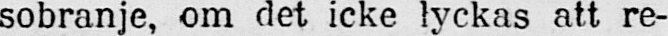sobranje, om det icke lyckas att re-
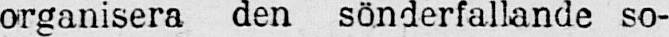organisera den sönderfallande so-
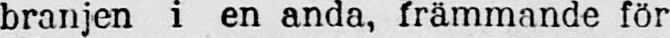branjen i en anda, främmande för
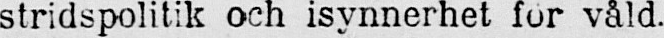stridspolitik och isynnerhet for våld.
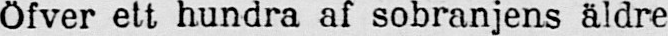Öfver ett hundra af sobranjens äldre
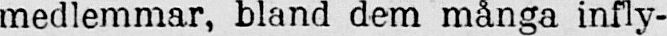medlemmar, bland dem många infly-
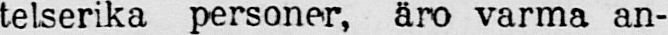telserika personer, äro varma an-
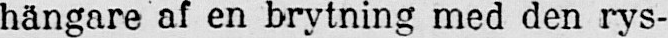hängare af en brytning med den rys-
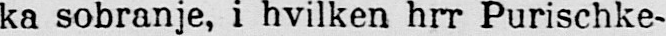ka sobranje, i hvilken hrr Purischke-
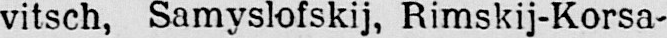vitsch, Samyslofskij, Rimskij-Korsa-
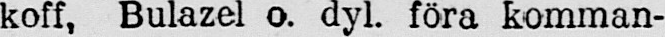koff, Bulazel o. dyl. föra komman-
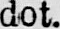dot.
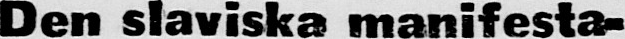Den slaviska manifesta-
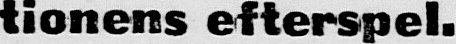tionens efterspel.
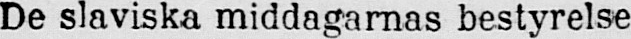De slaviska middagarnas bestyrelse
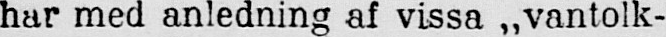har med anledning af vissa „vantolk-
